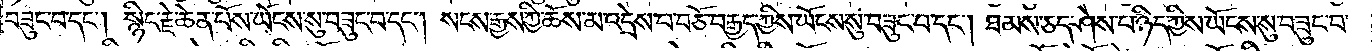བཟུང་བ་དང༌། སྙིང་རྗེ་ཆེན་པོས་ཡོངས་སུ་བཟུང་བ་དང༌། སངས་རྒྱས་ཀྱི་ཆོས་མ་འདྲས་པ་བཅོ་བརྒྱད་ཀྱིས་ཡོངས་སུ་བཟུང་བ་དང༌། ཐམས་ཅད་ཤེས་པ་ཉིད་ཀྱིས་ཡོངས་སུ་བཟུང་བ་
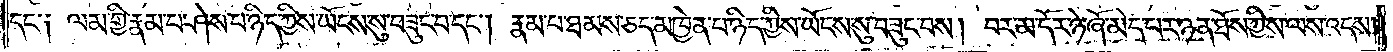དང༌། ལམ་གྱི་རྣམ་པ་ཤེས་པ་ཉིད་ཀྱིས་ཡོངས་སུ་བཟུང་བ་དང༌། རྣམ་པ་ཐམས་ཅད་མཁྱེན་པ་ཉིད་ཀྱིས་ཡོངས་སུ་བཟུང་བས། བར་མ་དོར་ཉེ་ཞོ་མེད་པར་ཉན་ཐོས་ཀྱི་ས་ལས་འདས།
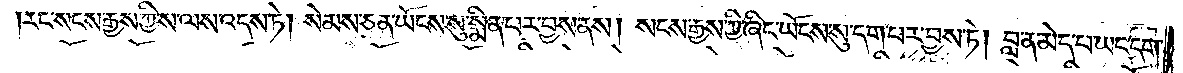རང་སངས་རྒྱས་ཀྱི་ས་ལས་འདས་ཏེ། སེམས་ཅན་ཡོངས་སུ་སྨིན་པར་བྱས་ནས། སངས་རྒྱས་ཀྱི་ཞིང་ཡོངས་སུ་དག་པར་བྱས་ཏེ། བླ་ན་མེད་པ་ཡང་དག་
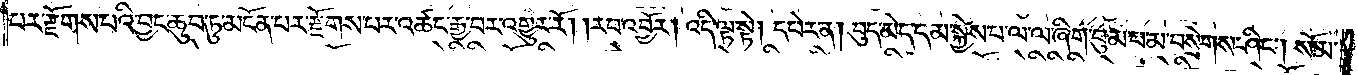པར་རྫོགས་པའི་བྱང་ཆུབ་ཏུ་མངོན་པར་རྫོགས་པར་འཚང་རྒྱ་བར་འགྱུར་རོ། །རབ་འབྱོར། འདི་ལྟ་སྟེ། དཔེར་ན། བུད་མེད་དམ་སྐྱེས་པ་ལ་ལ་ཞིག་བུམ་པ་མ་བསྲེགས་ཤིང༌། སོ་མ་
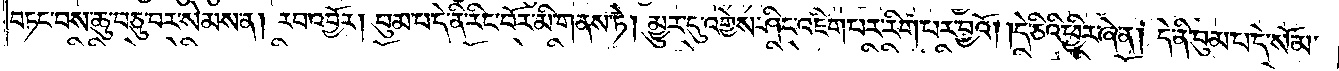བཏང་བས་ཆུ་བཅུ་བར་སེམས་ན། རབ་འབྱོར། བུམ་པ་དེ་ནི་རིང་པོར་མི་གནས་ཏེ། མྱུར་དུ་འགྱེས་ཤིང་འཇིག་པར་རིག་པར་བྱའོ། །དེ་ཅིའི་ཕྱིར་ཞེ་ན། དེ་ནི་བུམ་པ་དེ་སོ་མ་
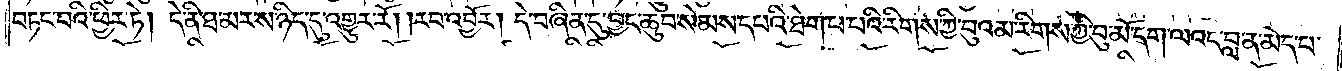བཏང་བའི་ཕྱིར་ཏེ། དེ་ནི་ཐ་མར་ས་ཉིད་དུ་འགྱུར་རོ། །རབ་འབྱོར། དེ་བཞིན་དུ་བྱང་ཆུབ་སེམས་དཔའི་ཐེག་པ་པའི་རིགས་ཀྱི་བུའམ་རིགས་ཀྱི་བུ་མོ་དག་ལའང་བླ་ན་མེད་པ་
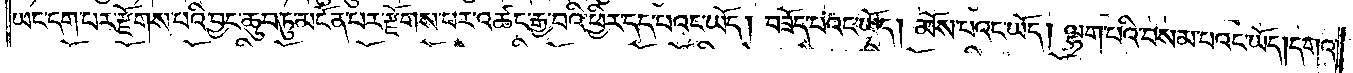ཡང་དག་པར་རྫོགས་པའི་བྱང་ཆུབ་ཏུ་མངོན་པར་རྫོགས་པར་འཚང་རྒྱ་བའི་ཕྱིར་དད་པའང་ཡོད། བཟོད་པའང་ཡོད། མོས་པའང་ཡོད། ལྷག་པའི་བསམ་པའང་ཡོད། དགའ་
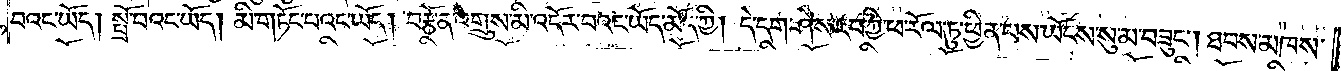བའང་ཡོད། སྤྲོ་བའང་ཡོད། མི་གཏོང་བའང་ཡོད། བརྩོན་འགྲུས་མི་འདོར་བའང་ཡོད་མོད་ཀྱི། དེ་དག་ཤེས་རབ་ཀྱི་ཕ་རོལ་ཏུ་ཕྱིན་པས་ཡོངས་སུ་མ་བཟུང༌། ཐབས་མཁས་
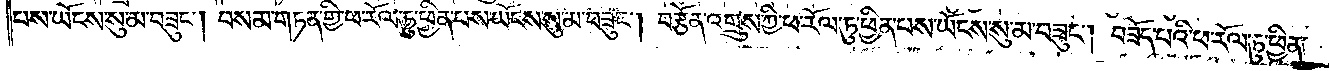པས་ཡོངས་སུ་མ་བཟུང༌། བསམ་གཏན་གྱི་ཕ་རོལ་ཏུ་ཕྱིན་པས་ཡོངས་སུ་མ་བཟུང༌། བརྩོན་འགྲུས་ཀྱི་ཕ་རོལ་ཏུ་ཕྱིན་པས་ཡོངས་སུ་མ་བཟུང༌། བཟོད་པའི་ཕ་རོལ་ཏུ་ཕྱིན་
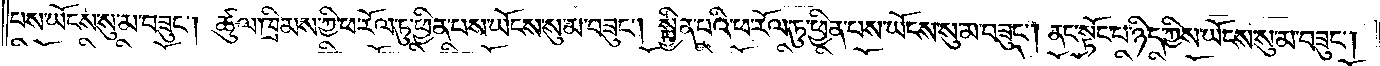པས་ཡོངས་སུ་མ་བཟུང༌། ཚུལ་ཁྲིམས་ཀྱི་ཕ་རོལ་ཏུ་ཕྱིན་པས་ཡོངས་སུ་མ་བཟུང༌། སྦྱིན་པའི་ཕ་རོལ་ཏུ་ཕྱིན་པས་ཡོངས་སུ་མ་བཟུང༌། ནང་སྟོང་པ་ཉིད་ཀྱིས་ཡོངས་སུ་མ་བཟུང༌།
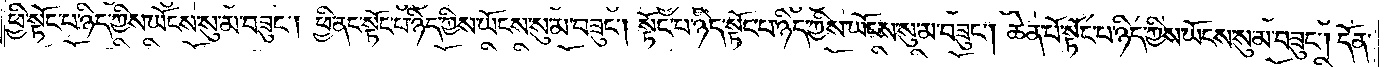ཕྱི་སྟོང་པ་ཉིད་ཀྱིས་ཡོངས་སུ་མ་བཟུང༌། ཕྱི་ནང་སྟོང་པ་ཉིད་ཀྱིས་ཡོངས་སུ་མ་བཟུང༌། སྟོང་པ་ཉིད་སྟོང་པ་ཉིད་ཀྱིས་ཡོངས་སུ་མ་བཟུང༌། ཆེན་པོ་སྟོང་པ་ཉིད་ཀྱིས་ཡོངས་སུ་མ་བཟུང༌། དོན་
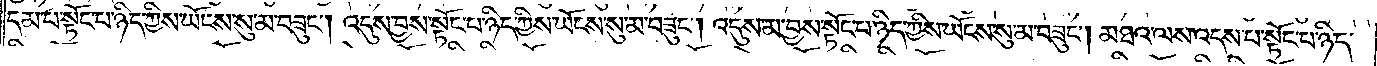དམ་པ་སྟོང་པ་ཉིད་ཀྱིས་ཡོངས་སུ་མ་བཟུང༌། འདུས་བྱས་སྟོང་པ་ཉིད་ཀྱིས་ཡོངས་སུ་མ་བཟུང༌། འདུས་མ་བྱས་སྟོང་པ་ཉིད་ཀྱིས་ཡོངས་སུ་མ་བཟུང༌། མཐའ་ལས་འདས་པ་སྟོང་པ་ཉིད་
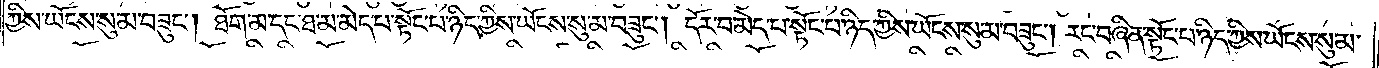ཀྱིས་ཡོངས་སུ་མ་བཟུང༌། ཐོག་མ་དང་ཐ་མ་མེད་པ་སྟོང་པ་ཉིད་ཀྱིས་ཡོངས་སུ་མ་བཟུང༌། དོར་བ་མེད་པ་སྟོང་པ་ཉིད་ཀྱིས་ཡོངས་སུ་མ་བཟུང༌། རང་བཞིན་སྟོང་པ་ཉིད་ཀྱིས་ཡོངས་སུ་མ་
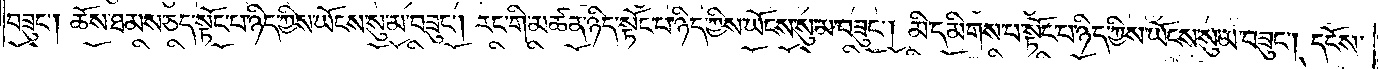བཟུང༌། ཆོས་ཐམས་ཅད་སྟོང་པ་ཉིད་ཀྱིས་ཡོངས་སུ་མ་བཟུང༌། རང་གི་མཚན་ཉིད་སྟོང་པ་ཉིད་ཀྱིས་ཡོངས་སུ་མ་བཟུང༌། མི་དམིགས་པ་སྟོང་པ་ཉིད་ཀྱིས་ཡོངས་སུ་མ་བཟུང༌། དངོས་
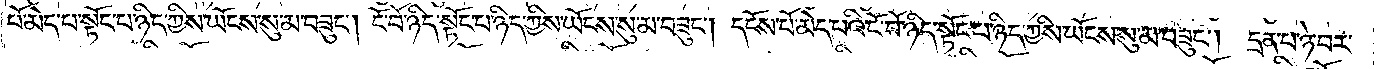པོ་མེད་པ་སྟོང་པ་ཉིད་ཀྱིས་ཡོངས་སུ་མ་བཟུང༌། ངོ་བོ་ཉིད་སྟོང་པ་ཉིད་ཀྱིས་ཡོངས་སུ་མ་བཟུང༌། དངོས་པོ་མེད་པའི་ངོ་བོ་ཉིད་སྟོང་པ་ཉིད་ཀྱིས་ཡོངས་སུ་མ་བཟུང༌། དྲན་པ་ཉེ་བར་
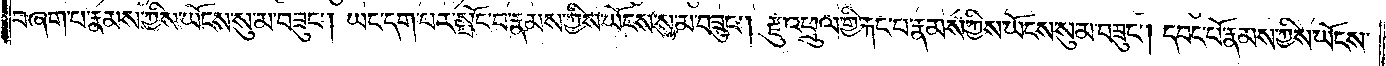བཞག་པ་རྣམས་ཀྱིས་ཡོངས་སུ་མ་བཟུང༌། ཡང་དག་པར་སྤོང་བ་རྣམས་ཀྱིས་ཡོངས་སུ་མ་བཟུང༌། རྫུ་འཕྲུལ་གྱི་རྐང་པ་རྣམས་ཀྱིས་ཡོངས་སུ་མ་བཟུང༌། དབང་པོ་རྣམས་ཀྱིས་ཡོངས་
